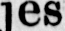jes af Lektorska Bygdén.
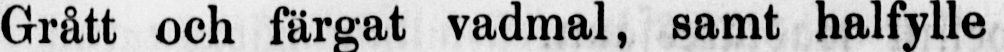Grått och färgat vadmal, samt halfylle
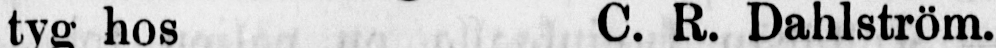tyg hos C. R. Dahlström.
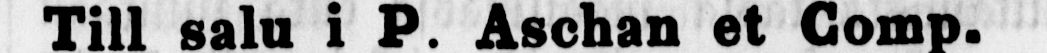Till salu i P. Aschan et Comp.
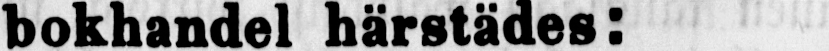bokhandel härstädes:
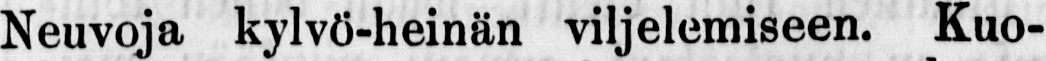Neuvoja kylvö-heinän viljelemiseen. Kuo-
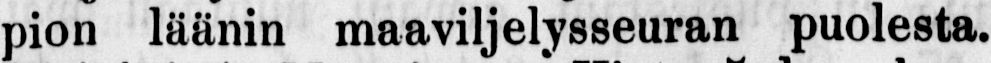pion läänin maaviljelysseuran puolesta.
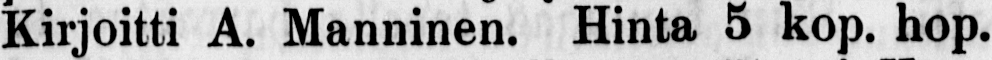Kirjoitti A. Manninen. Hinta 5 kop. hop.
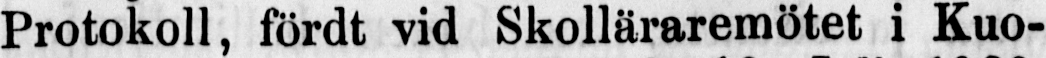Protokoll, fördt vid Skolläraremötet i Kuo-
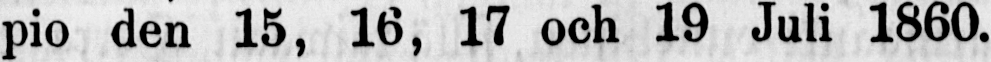pio den 15, 16, 17 och 19 Juli 1860.
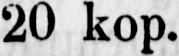20 kop.
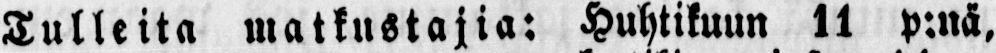Tulleita matkustajia: Huhtikuun 11 p:nä,
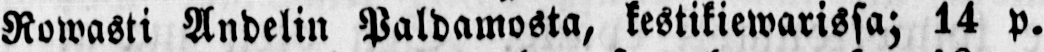Rowasti Andelin Paldamosta, kestikiewarissa; 14 p.
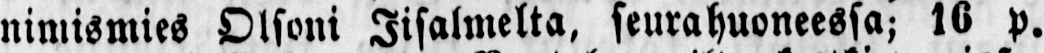nimismies Olsoni Iisalmelta, seurahuoneessa; 16 p.
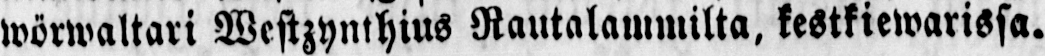wörwaltari Westzynthius Rautalammilta, kestkiewarissa.
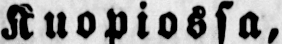Kuopiossa,
